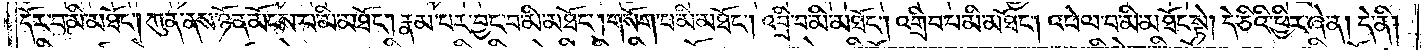དོར་བ་མི་མཐོང༌། ཀུན་ནས་ཉོན་མོངས་པ་མི་མཐོང༌། རྣམ་པར་བྱང་བ་མི་མཐོང༌། གསོག་པ་མི་མཐོང༌། འབྲི་བ་མི་མཐོང༌། འགྲིབ་པ་མི་མཐོང༌། འཕེལ་བ་མི་མཐོང་སྟེ། དེ་ཅིའི་ཕྱིར་ཞེ་ན། དེ་ནི།
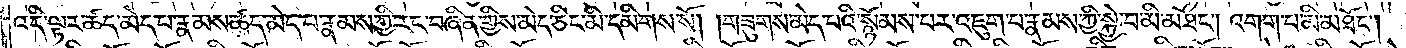འདི་ལྟར་ཚད་མེད་པ་རྣམས་ཚད་མེད་པ་རྣམས་ཀྱི་རང་བཞིན་གྱིས་མེད་ཅིང་མི་དམིགས་སོ། །གཟུགས་མེད་པའི་སྙོམས་པར་འཇུག་པ་རྣམས་ཀྱི་སྐྱེ་བ་མི་མཐོང༌། འགག་པ་མི་མཐོང༌།
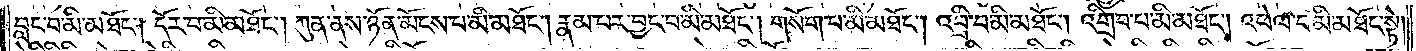བླང་བ་མི་མཐོང༌། དོར་བ་མི་མཐོང༌། ཀུན་ནས་ཉོན་མོངས་པ་མི་མཐོང༌། རྣམ་པར་བྱང་བ་མི་མཐོང༌། གསོག་པ་མི་མཐོང༌། འབྲི་བ་མི་མཐོང༌། འགྲིབ་པ་མི་མཐོང༌། འཕེལ་བ་མི་མཐོང་སྟེ།
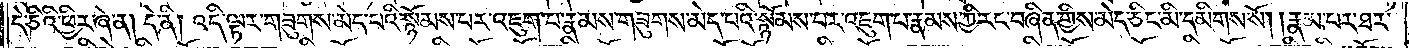དེ་ཅིའི་ཕྱིར་ཞེ་ན། དེ་ནི། འདི་ལྟར་གཟུགས་མེད་པའི་སྙོམས་པར་འཇུག་པ་རྣམས་གཟུགས་མེད་པའི་སྙོམས་པར་འཇུག་པ་རྣམས་ཀྱི་རང་བཞིན་གྱིས་མེད་ཅིང་མི་དམིགས་སོ། །རྣམ་པར་ཐར་
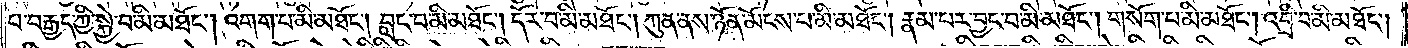བ་བརྒྱད་ཀྱི་སྐྱེ་བ་མི་མཐོང༌། འགག་པ་མི་མཐོང༌། བླང་བ་མི་མཐོང༌། དོར་བ་མི་མཐོང༌། ཀུན་ནས་ཉོན་མོངས་པ་མི་མཐོང༌། རྣམ་པར་བྱང་བ་མི་མཐོང༌། གསོག་པ་མི་མཐོང༌། འབྲི་བ་མི་མཐོང༌།
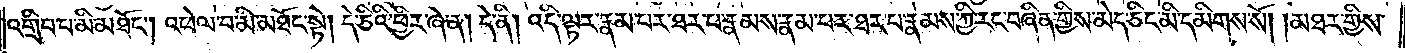འགྲིབ་པ་མི་མཐོང༌། འཕེལ་བ་མི་མཐོང་སྟེ། དེ་ཅིའི་ཕྱིར་ཞེ་ན། དེ་ནི། འདི་ལྟར་རྣམ་པར་ཐར་པ་རྣམས་རྣམ་པར་ཐར་པ་རྣམས་ཀྱི་རང་བཞིན་གྱིས་མེད་ཅིང་མི་དམིགས་སོ། །མཐར་གྱིས་
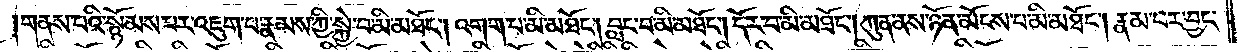གནས་པའི་སྙོམས་པར་འཇུག་པ་རྣམས་ཀྱི་སྐྱེ་བ་མི་མཐོང༌། འགག་པ་མི་མཐོང༌། བླང་བ་མི་མཐོང༌། དོར་བ་མི་མཐོང༌། ཀུན་ནས་ཉོན་མོངས་པ་མི་མཐོང༌། རྣམ་པར་བྱང་
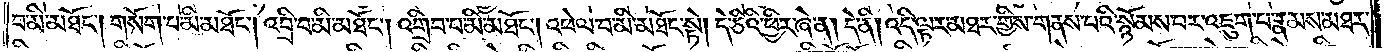བ་མི་མཐོང༌། གསོག་པ་མི་མཐོང༌། འབྲི་བ་མི་མཐོང༌། འགྲིབ་པ་མི་མཐོང༌། འཕེལ་བ་མི་མཐོང་སྟེ། དེ་ཅིའི་ཕྱིར་ཞེ་ན། དེ་ནི། འདི་ལྟར་མཐར་གྱིས་གནས་པའི་སྙོམས་པར་འཇུག་པ་རྣམས་མཐར་
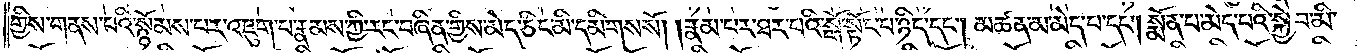གྱིས་གནས་པའི་སྙོམས་པར་འཇུག་པ་རྣམས་ཀྱི་རང་བཞིན་གྱིས་མེད་ཅིང་མི་དམིགས་སོ། །རྣམ་པར་ཐར་པའི་སྒོ་སྟོང་པ་ཉིད་དང༌། མཚན་མ་མེད་པ་དང༌། སྨོན་པ་མེད་པའི་སྐྱེ་བ་མི་
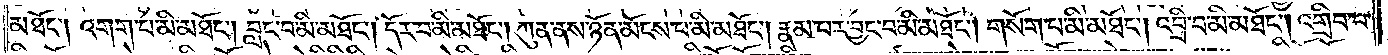མཐོང༌། འགག་པ་མི་མཐོང༌། བླང་བ་མི་མཐོང༌། དོར་བ་མི་མཐོང༌། ཀུན་ནས་ཉོན་མོངས་པ་མི་མཐོང༌། རྣམ་པར་བྱང་བ་མི་མཐོང༌། གསོག་པ་མི་མཐོང༌། འབྲི་བ་མི་མཐོང༌། འགྲིབ་པ་
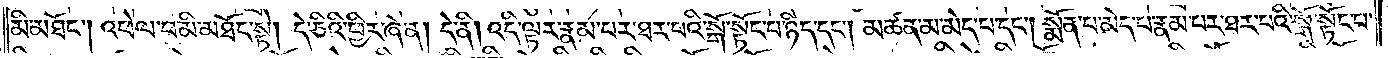མི་མཐོང༌། འཕེལ་བ་མི་མཐོང་སྟེ། དེ་ཅིའི་ཕྱིར་ཞེ་ན། དེ་ནི། འདི་ལྟར་རྣམ་པར་ཐར་པའི་སྒོ་སྟོང་པ་ཉིད་དང༌། མཚན་མ་མེད་པ་དང༌། སྨོན་པ་མེད་པ་རྣམ་པར་ཐར་པའི་སྒོ་སྟོང་པ་
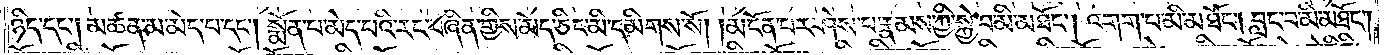ཉིད་དང༌། མཚན་མ་མེད་པ་དང༌། སྨོན་པ་མེད་པའི་རང་བཞིན་གྱིས་མེད་ཅིང་མི་དམིགས་སོ། །མངོན་པར་ཤེས་པ་རྣམས་ཀྱི་སྐྱེ་བ་མི་མཐོང༌། འགག་པ་མི་མཐོང༌། བླང་བ་མི་མཐོང༌།
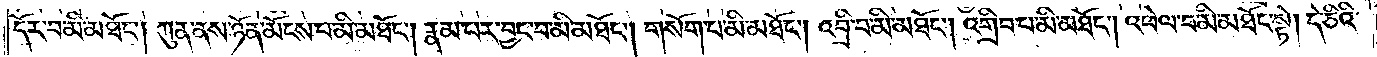དོར་བ་མི་མཐོང༌། ཀུན་ནས་ཉོན་མོངས་པ་མི་མཐོང༌། རྣམ་པར་བྱང་བ་མི་མཐོང༌། གསོག་པ་མི་མཐོང༌། འབྲི་བ་མི་མཐོང༌། འགྲིབ་པ་མི་མཐོང༌། འཕེལ་བ་མི་མཐོང་སྟེ། དེ་ཅིའི་
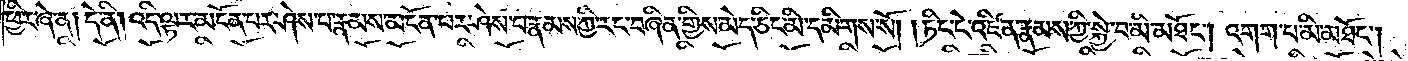ཕྱིར་ཞེ་ན། དེ་ནི། འདི་ལྟར་མངོན་པར་ཤེས་པ་རྣམས་མངོན་པར་ཤེས་པ་རྣམས་ཀྱི་རང་བཞིན་གྱིས་མེད་ཅིང་མི་དམིགས་སོ། །ཏིང་ངེ་འཛིན་རྣམས་ཀྱི་སྐྱེ་བ་མི་མཐོང༌། འགག་པ་མི་མཐོང༌།
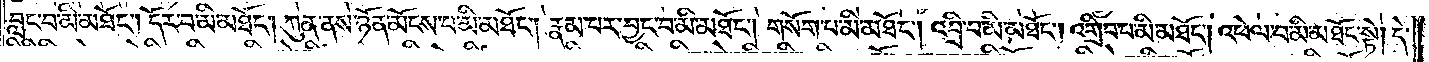བླང་བ་མི་མཐོང༌། དོར་བ་མི་མཐོང༌། ཀུན་ནས་ཉོན་མོངས་པ་མི་མཐོང༌། རྣམ་པར་བྱང་པ་མི་མཐོང༌། གསོག་པ་མི་མཐོང༌། འབྲི་བ་མི་མཐོང༌། འགྲིབ་པ་མི་མཐོང༌། འཕེལ་བ་མི་མཐོང་སྟེ། དེ་
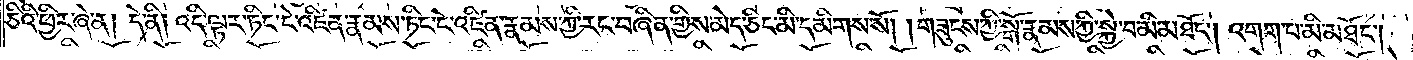ཅིའི་ཕྱིར་ཞེ་ན། དེ་ནི། འདི་ལྟར་ཏིང་ངེ་འཛིན་རྣམས་ཏིང་ངེ་འཛིན་རྣམས་ཀྱི་རང་བཞིན་གྱིས་མེད་ཅིང་མི་དམིགས་སོ། །གཟུངས་ཀྱི་སྒོ་རྣམས་ཀྱི་སྐྱེ་བ་མི་མཐོང༌། འགག་པ་མི་མཐོང༌།
